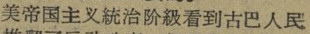美帝国主义統治阶級看到古巴人民
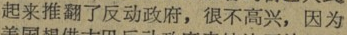起来推翻了反动政府，很不高兴，因为
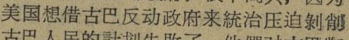美国想借古巴反动政府来統治压迫剝削
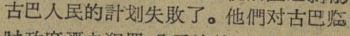古巴人民的計划失敗了。他們对古巴临
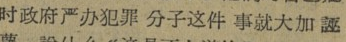时政府严办犯罪 分子这件 事就大加 誣
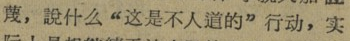蔑，說什么“这是不人道的”行动，实
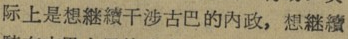际上是想継續干涉古巴的内政，想継續
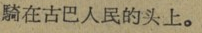騎在古巴人民的头上。
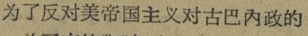为了反对美帝国主义对古巴内政的
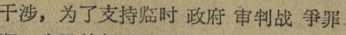干涉，为了支持临时 政府 审判战 爭罪
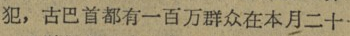犯，古巴首都有一百万群众在本月二十
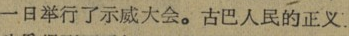一日举行了示威大会。古巴人民的正义
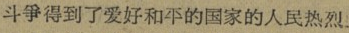斗爭得到爱好和平的国家的人民的热烈
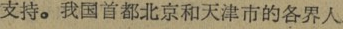支持。我国首都北京和天津市的各界人
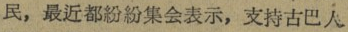民，最近都紛紛集会表示，支持古巴人
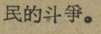民的斗爭。
